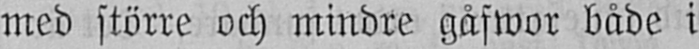med större och mindre gåfwor både i
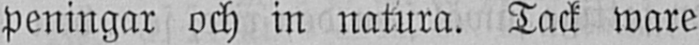peningar och in natura. Tack ware
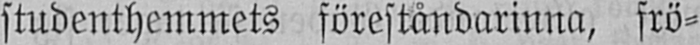studenthemmets föreståndarinna, frö-
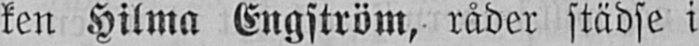ken Hilma Engström, råder städse i
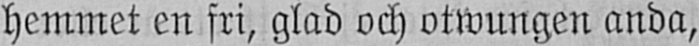hemmet en fri, glad och otwungen anda,
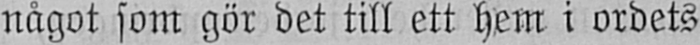något som gör det till ett hem i ordets
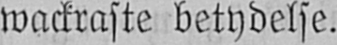wackraste betydelse.
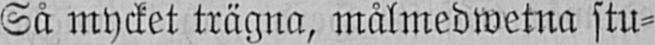Så mycket trägna, målmedwetna stu-
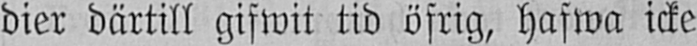dier därtill gifwit tid öfrig, hafwa icke
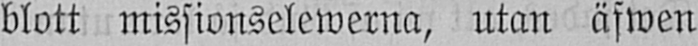blott missionselewerna, utan äfwen
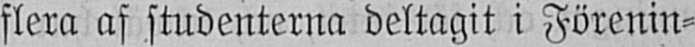flera af studenterna deltagit i Förenin-
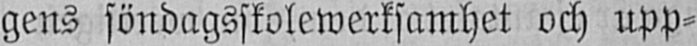gens söndagsskolewerksamhet och upp-
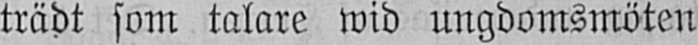trädt som talare wid ungdomsmöten
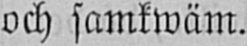och samkwäm.
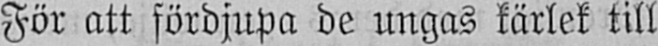För att fördjupa de ungas kärlek till
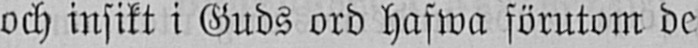och insikt i Guds ord hafwa förutom de
